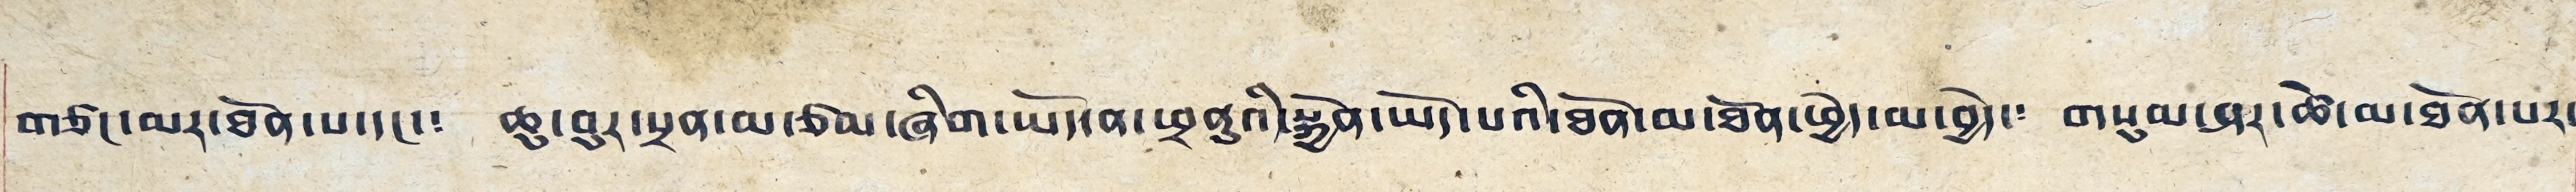གཙང་མར་ཐོན་པ་དང་༴ ཆུ་བུར་སྲན་མ་ཙམ་ཞིག་ཡོད་ན་ཕྲནུའི་རྐྱེན་ཡོད་པའི་ཐོན་མ་ཐོན་ཕྱེད་མ་བྱེད་༴ གསུམ་ཤར་ཚེ་མ་ཐོན་པར་
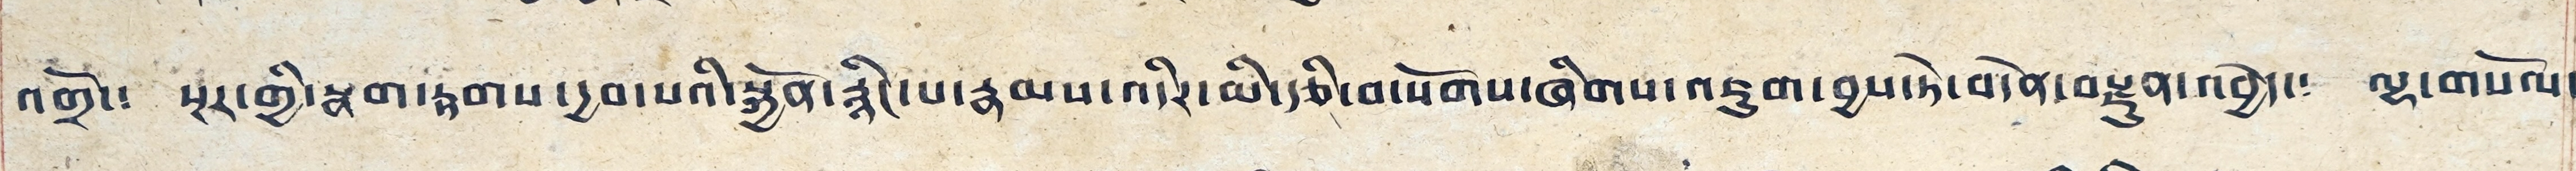འགྲོ་༴ སྔར་གྱི་སྣག་རྟགས་དྱབ་པའི་སྐྱོན་རྙིང་པ་རྣམས་འདིར་མི་རྩི་བ་སོགས་ཞིགས་འཇུག་བྱས་ཏེ་བདེན་བརྫུན་འབྱེད་༴ ལྷ་གསོལ་
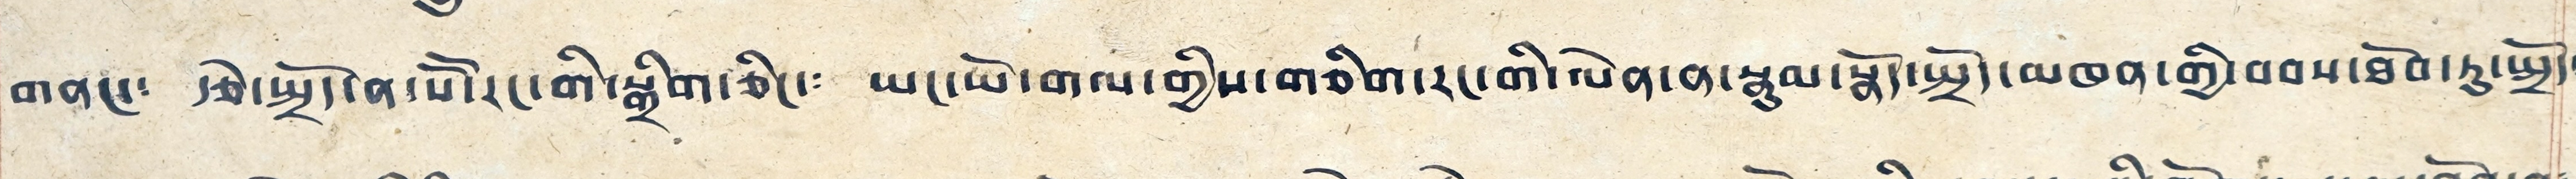གནང་༴ རྩེ་སྤྲོད་ན་སོ་སོ་རང་གི་སྒྲིག་ཅིང་༴ ཡང་ཡོ་གལ་གྱིས་གཅིག་རང་གི་ལེན་ན་སྣུམ་སྣོད་སྤྲོད་མཁན་གྱི་བབས་ཐོབ་ཏུ་སྤྲོད༴
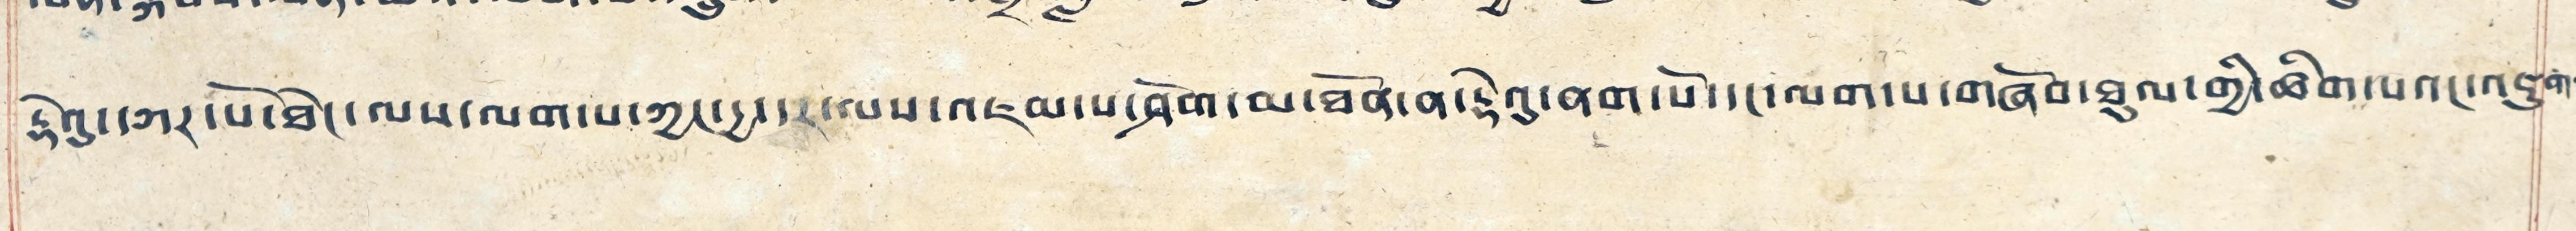རྡེའུ་དཀར་པོ་ཐེང་ལས་ལག་པ་ཀྱང་དྱ་དར་ལས་འཇམ་པ་ཤོག་མ་ཐོན་ན་རྡེའུ་ནག་པོ་དང་ལག་པ་གཞོབ་ཐུལ་གྱི་ཚིག་སའང་འཇུག༴
